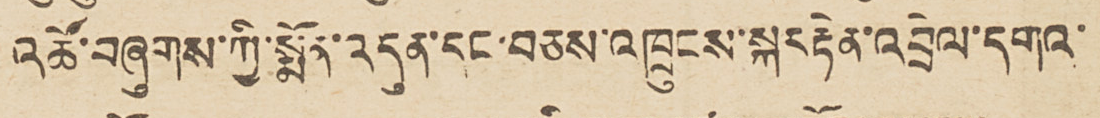འཚོ་བཞུགས་ཀྱི་སྨོན་འདུན་དང་བཅས་འཁྲུངས་སྐར རྟེན་འབྲེལ་དགའ་
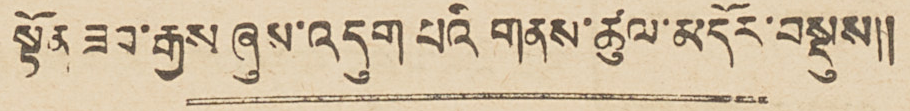སྟོན ཟབ་རྒྱས ཞུས་འདུག པའི གནས་ཚུལ་མདོར་བསྡུས།།
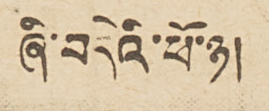ཞི་བདེའི་ཕོ་ཉ།
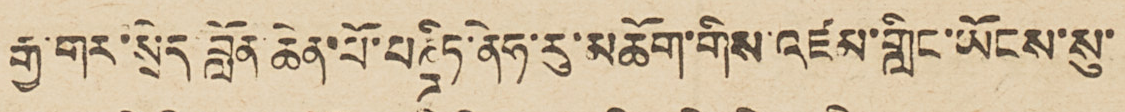རྒྱ་གར་སྲིད བློན ཆེན་པོ་པཎྜིཏ་ནེཧ་རུ་མཆོག་གིས་འཛམ་གླིང་ཡོངས་སུ་
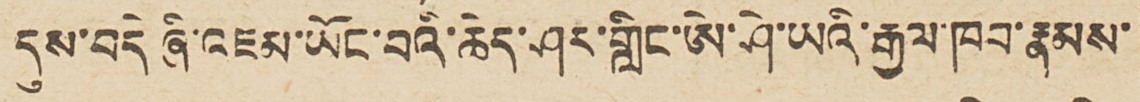དུས་བདེ ཞི་འཇམ་ཡོང་བའི་ཆེད་ཤར་གླིང་ཨེ་ཤེ་ཡའི་རྒྱལ་ཁབ་རྣམས་
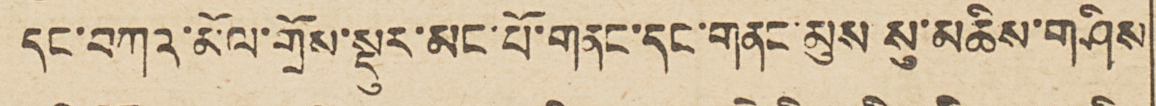དང་བཀའ་མོལ་གྲོས་སྡུར་མང་པོ་གནང་དང་གནང་མུས སུ་མཆིས་གཤིས
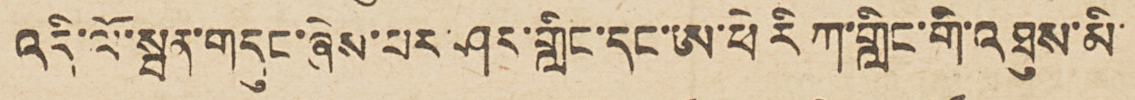འདི་ལོ་སྦན་གདུང་ཞེས་པར་ཤར་གླིང་དང་ཨ་ཕེ རི ཀ་གླིང་གི་འཐུས་མི་
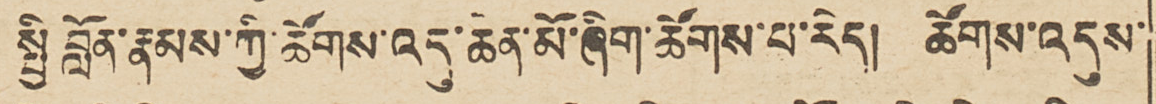སྤྱི བློན་རྣམས་ཀྱི་ཚོགས་འདུ་ཆེན་མོ་ཞིག་ཚོགས་པ་རེད། ཚོགས་འདུས་
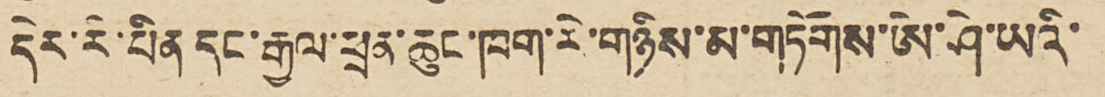དེར་རི་པིན དང་རྒྱལ་ཕྲན་ཆུང་ཁག་རེ་གཉིས་མ་གཏོགས་ཨེ་ཤེ་ཡའི་
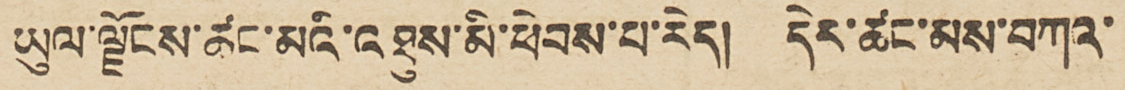ཡུལ་ལྗོངས་ཚང་མའི་འཐུས་མི་ཕེབས་པ་རེད། དེར་ཚང་མས་བཀའ་
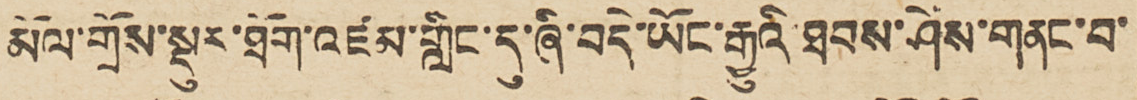མོལ་གྲོས་སྡུར་ཐོག་འཛམ་གླིང་དུ་ཞི་བདེ་ཡོང་རྒྱུའི་ཐབས་ཤེས་གནང་བ་
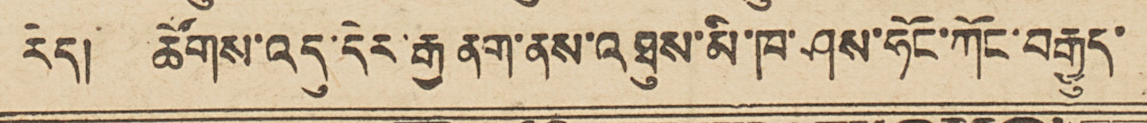རེད། ཚོགས་འདུ་དེར་རྒྱ་ནག་ནས་འཐུས་མི་ཁ་ཤས་ཧོང་ཀོང་བརྒྱུད་
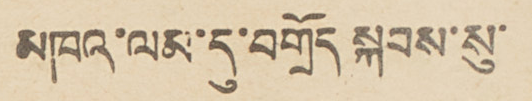མཁའ་ལམ་དུ་བགྲོད སྐབས་སུ་
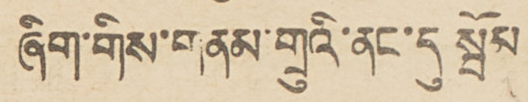ཞིག་གིས་གནམ་གྲུའི་ནང་དུ སྦོམ
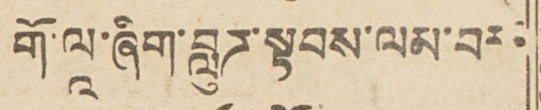གོ་ལཱ་ཞིག་བླུཌ་སྟབས་ལམ་བར
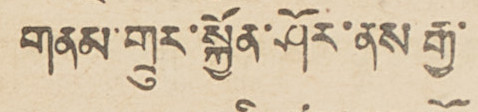གནམ་གྲུར་སྐྱོན་ཤོར་ནས རྒྱ་
